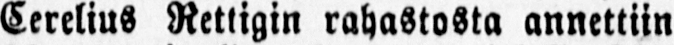Cerelius Rettigin rahastosta annettiin
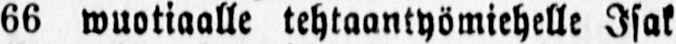66 wuotiaalle tehtaantyömiehelle Isak
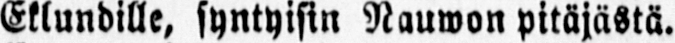Eklundille, syntyisin Nauwon pitäjästä.
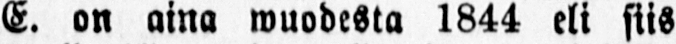E. on aina wuodesta 1844 eli siis
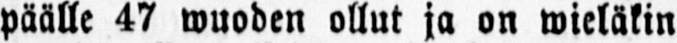päälle 47 wuoden ollut ja on wieläkin
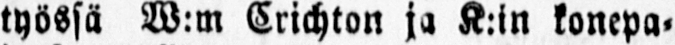työssä W:m Crichton ja K:in konepa-
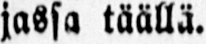jassa täällä.
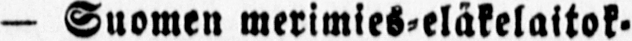— Suomen merimies-eläkelaitok-
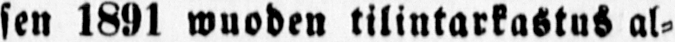sen 1881 wuoden tilintarkastus al-
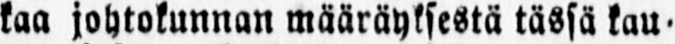kaa johtokunnan määräyksestä tässä kau-
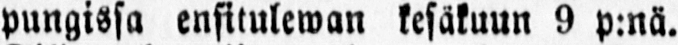pungissa ensiiulewan kesäkuun 9 p:nä.
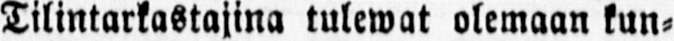Tilintarkastajina tulewat olemaan kun-
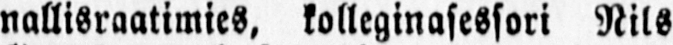nallisraatimies, kolleginasessori Nils
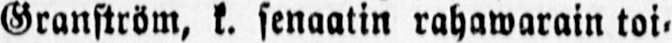Granström, k. senaatin rahawarain toi-
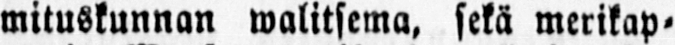mituskunnan walitsema, sekä merikap-
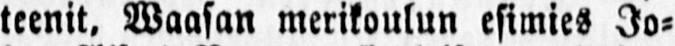teenit. Waasan merikoulun esimies Jo-
